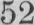52
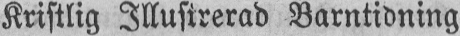Kristlig Illustrerad Barntidning
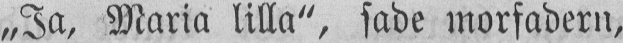„Ja, Maria lilla", sade morfadern,
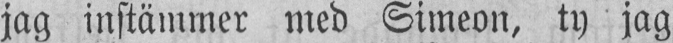jag instämmer med Simeon, ty jag
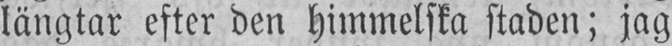längtar efter den himmelska staden; jag
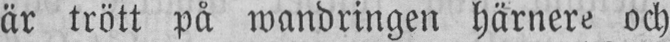är trött på wandringen härnere och
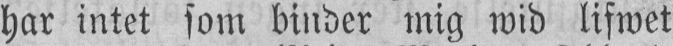har intet som binder mig wid lifwet
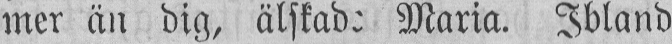mer än dig, älskade Maria. Ibland
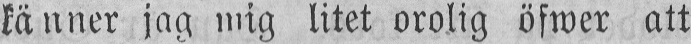känner jag mig litet orolig öfwer att
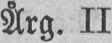Årg. II.
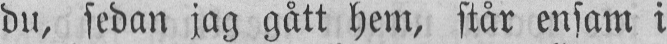du, sedan jag gått hem, står ensam i
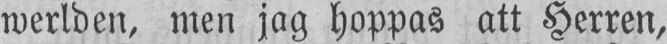werlden, men jag hoppas att Herren,
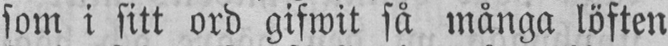som i sitt ord gifwit så många löften
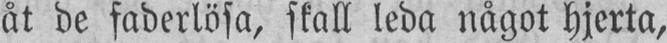åt de faderlösa, skall leda något hjerta,
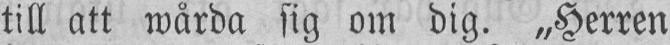till att wårda sig om dig. „Herren
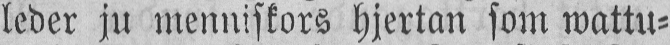leder ju menniskors hjertan som wattu-
